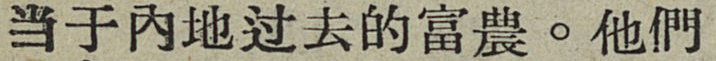当于内地过去的富農。他們
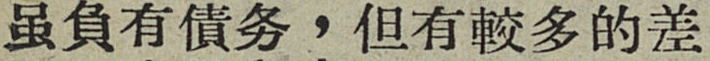虽負有債务，但有較多的差
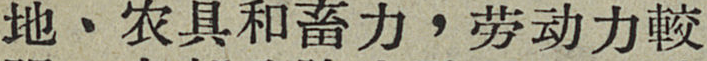地、农具和畜力，劳动力較
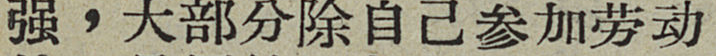强，大部分除自己参加劳动
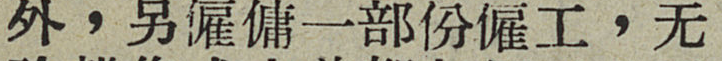外，另僱傭一部分僱工，无
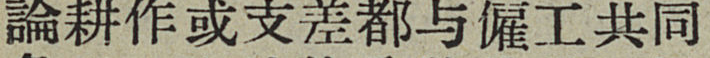論耕作或支差都与僱工共同
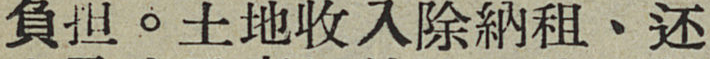負担。土地收入除納租、还
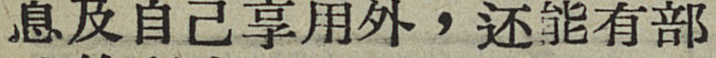息及自己享用外，还能有部
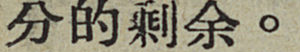分的剩余。
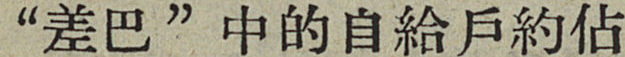“差巴”中的自給戶約佔
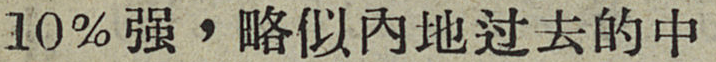10％强，略似内地过去的中
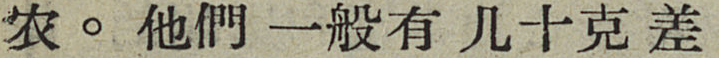农。他們一般有几十克差
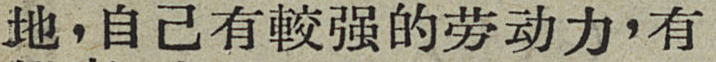地，自己有較强的劳动力，有
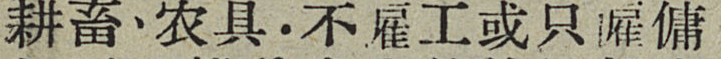耕畜、农具，不僱工或只僱傭
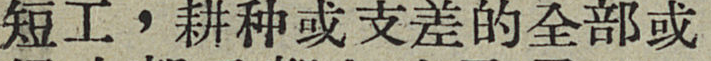短工，耕种或支差的全部或
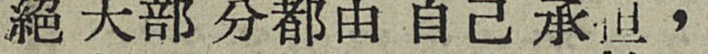絕大部分都由自己承担，
